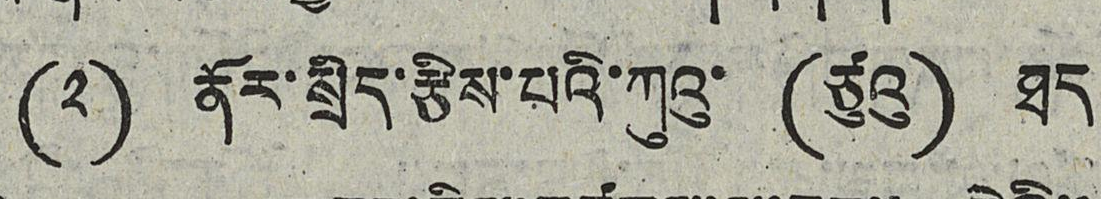(༢) ནོར་སྲིད་རྩིས་པའི་ཀུའུ་ (ཙུའུ) ཐད
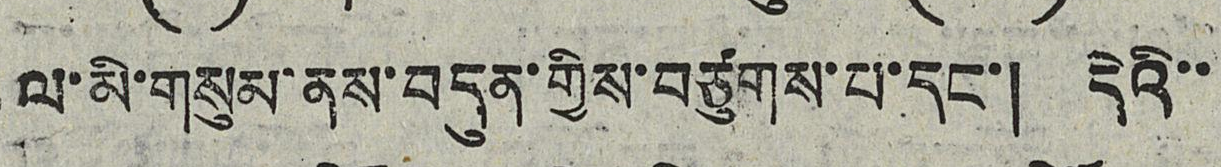ལ་མི་གསུམ་ནས་བདུན་གྱིས་བཙུགས་པ་དང་། དེའི་་
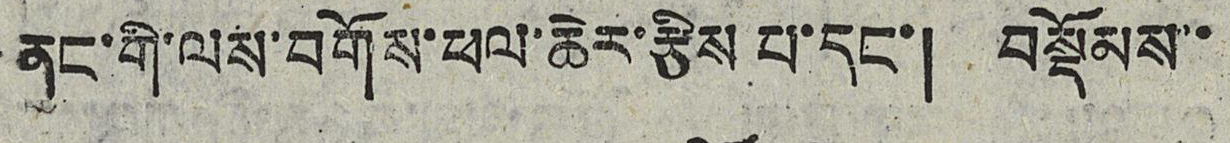ནང་གི་ལས་བགོས་ཕལ་ཆེར་རྩིས པ་དང་། བསྡོམས་་
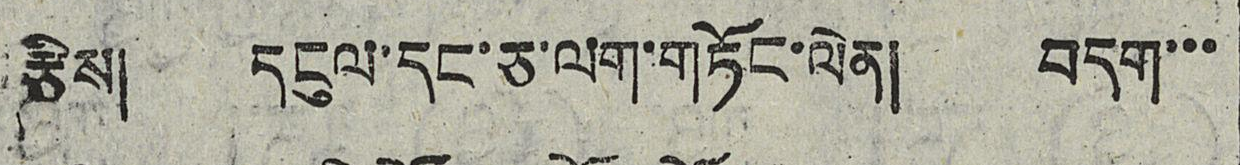རྩིས། དངུལ་དང་ཅ་ལག་གཏོང་ལེན། བདག་་་
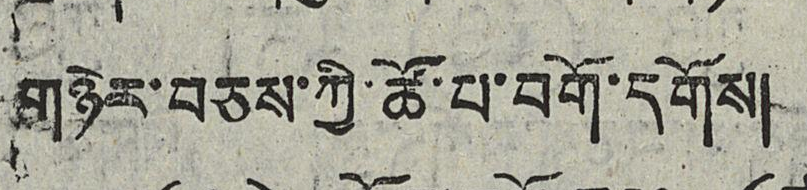གཉེར་བཅས་ཀྱི་ཚོ་པ་བགོ་དགོས།
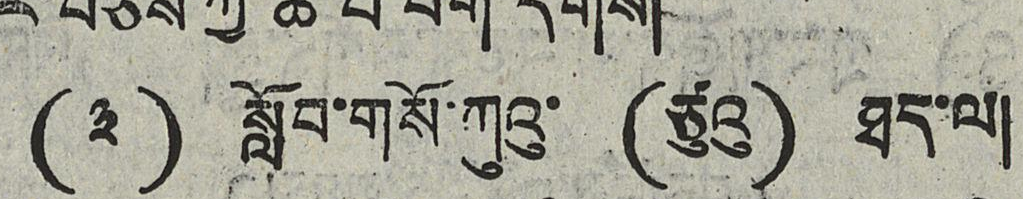(༣) སློབ་གསོ་ཀུའུ་ (ཙུའུ) ཐད་ལ།
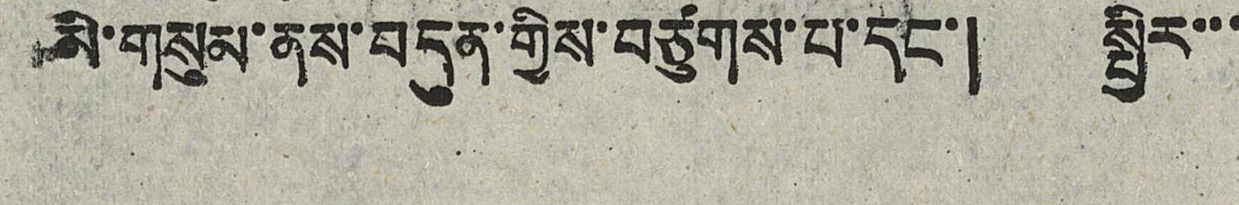མི་གསུམ་ནས་བདུན་གྱིས་བཙུགས་པ་དང་། སྤྱིར་་་
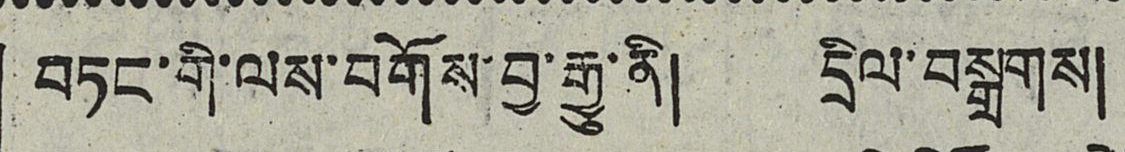བཏང་གི་ལས་བགོས་བྱ་རྒྱུ་ནི། དྲིལ་བསྒྲགས།
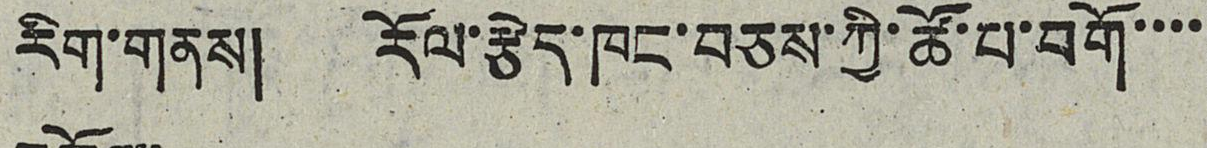རིག་གནས། རོལ་རྩེད་ཁང་བཅས་ཀྱི་ཚོ་པ་བགོ་་་་
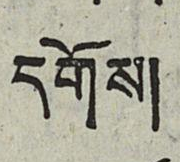དགོས།
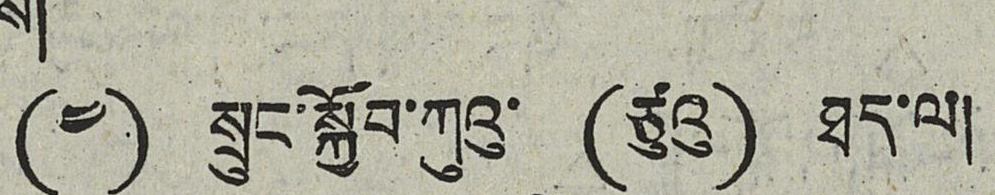(༤) སྲུང་སྐྱོབ་ཀུའུ་ (ཙུའུ) ཐད་ལ།
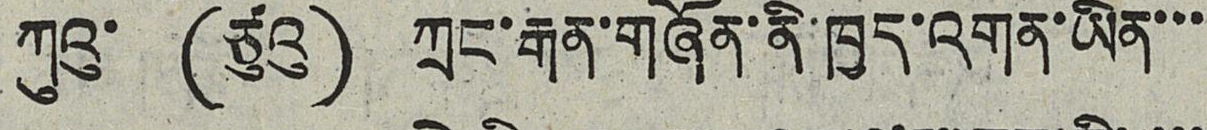ཀུའུ་ (ཙུའུ) ཀྲང་རྒན་གཞོན་ནི་ཁྱད་འགན་ཡིན་་
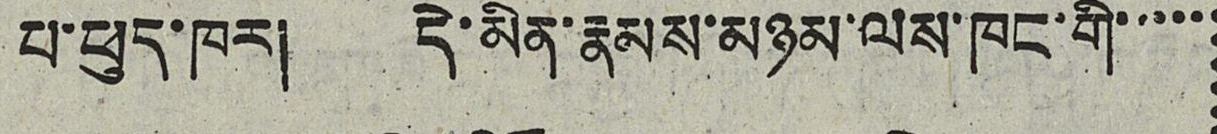པ་ཕུད་ཁར། དེ་མིན་རྣམས་མཉམ་ལས་ཁང་གི་་་་་
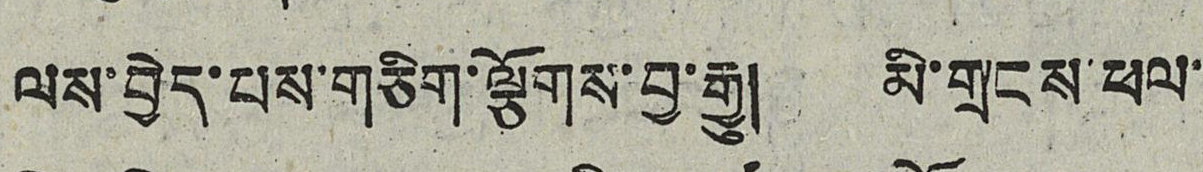ལས་བྱེད་པས་གཅིག་ལྕོགས་བྱ་རྒྱུ། མི་གྲངས་ཕལ་
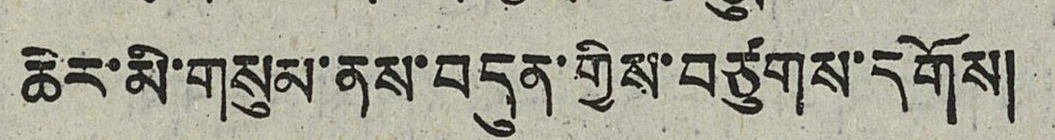ཆེར་མི་གསུམ་ནས་བདུན་གྱིས་བཙུགས་དགོས།
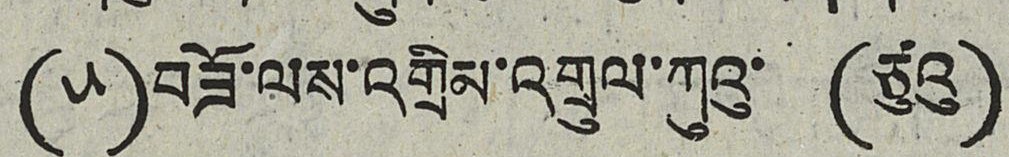(༥) བཟོ་ལས་འགྲིས་འགྲུལ་ཀུའུ་ (ཙུའུ)
